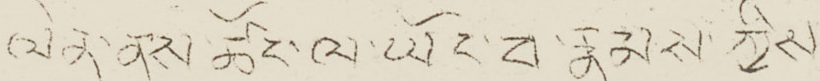ལེན་ནས་ཚོང་ལ་ཡོང་བ་རྣམས་ཀྱིས་
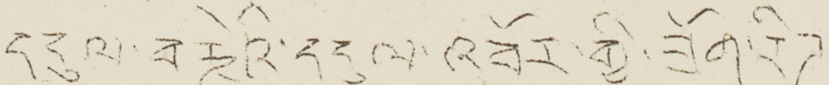དངུལ་བརྗེའི་དངུལ་འབོར་གྱི་ཟོག་རིཌ་
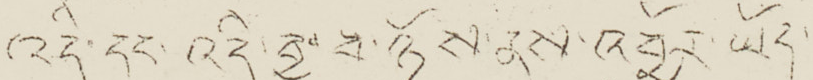འདི་དང་འདི་བྱ་བ་ཉོས་ནས་འབྱོར་ཡོད་
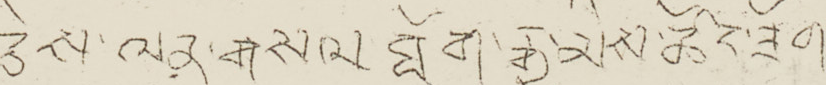ཅེས་ལན་གསལ ཐོག་རྒྱ་མིས་ཚང་ཟོག
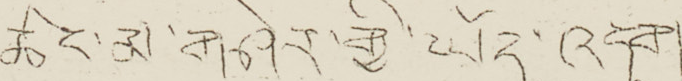ཚང་མ་གཤེར་གྱི་ཡོད་འདུག་ཅིང་།
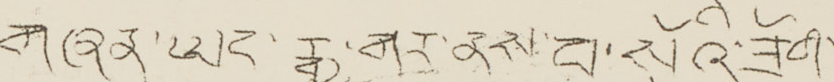གཞན་ཡང་རྒྱ་གར་ནས་བ་སོའི་ཟོག་
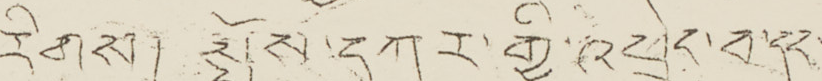རིགས། སྤོས་དཀར་གྱི་འཕྲེད་བ་དང་
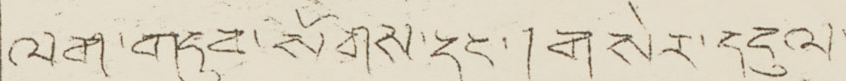ལག་གདུབ་སོགས་དང་། གསེར་དངུལ་
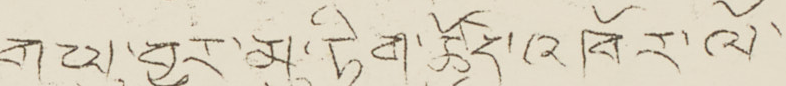གཡུ་བྱུར་མུ་ཏིག་ཚོུད་འཁོར་ལོ་
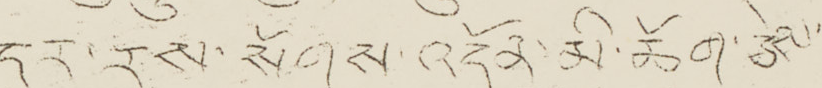དར་རས་སོགས་འདོན་མི་ཆོག་ཅེས་
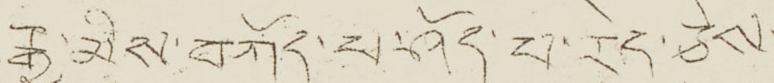རྒྱ་མིས་བཀོད་པ་ཤོད་པ་རེད་ཅེས་
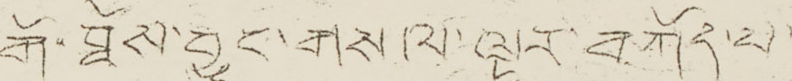གོ་ཐོས་བྱུང་གསལ་ལྟར་བཀོད་པ།
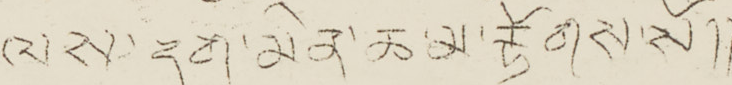ལས་དག་མིན་ཆ་མ་རྟོགས་སོ།།
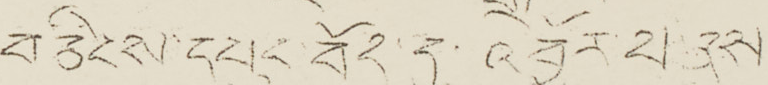བཅིངས་དཔུང་བོད་དུ་འབྱོར་པ་ནས
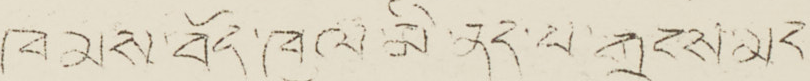ཁམས་བོད་ཁུལ་མི་ནད་པ་གྲངས་མང་
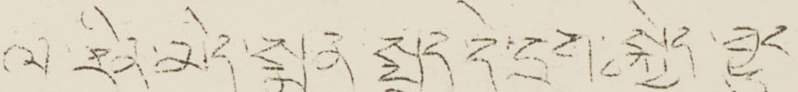ལ་རིན་མེད་སྨན་སྤྲད་དེ་དྲག་བསྐྱེད་བྱུང
